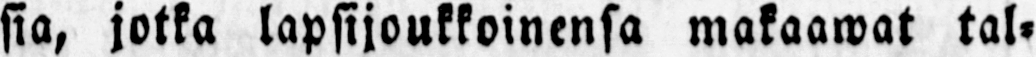sia, jotka lapsijoukkoinensa makaawat tal-
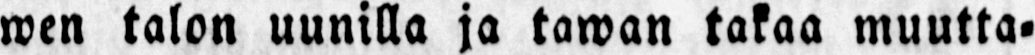wen talon uunilla ja tawan takaa muutta-
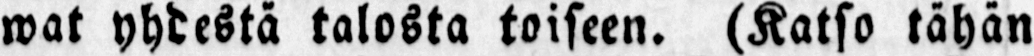wat yhdestä talosta toiseen. (Katso tähän
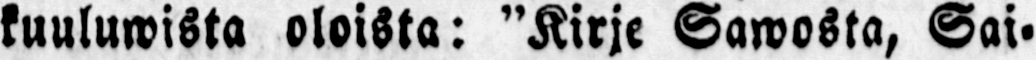kuuluwista oloista: "Kirje Sawosta, Sai-
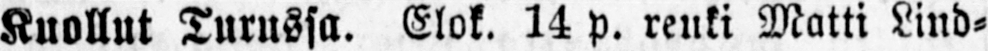Kuollut Turussa. Elok. 14 p. reuki Matti Lind-
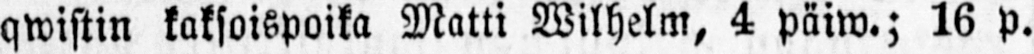qwistin kaksoispoika Matti Wilhelm, 4 päiw.; 16 p.
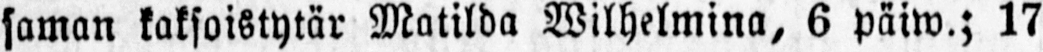saman kaksoistytär Matilda Wilhelmina, 6 päiw.; 17
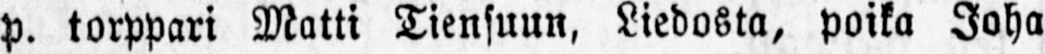p. torppari Matti Tiensuun, Liedosta, poika Joha
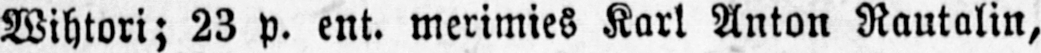Wihtori; 23 p. ent. merimies Karl Anton Rautalin,
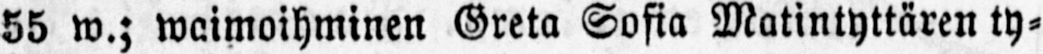55 w.; waimoihminen Greta Sofia Matintyttären ty-
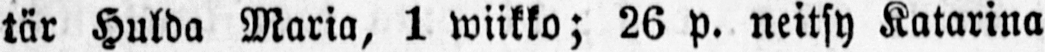tär Hulda Maria, 1 wiikko; 26 p. neitsy Katarina
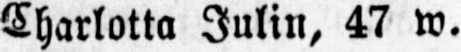Charlotta Julin, 47 w.
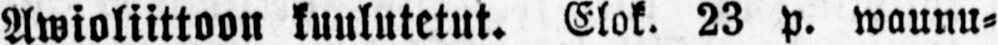Awioliittoon kuulutetut. Elok. 23 p. waunu-
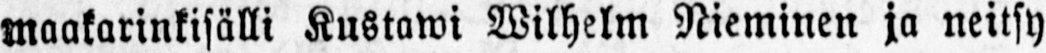maakarinkisälli Kustawi Wilhelm Nieminen ja neitsy
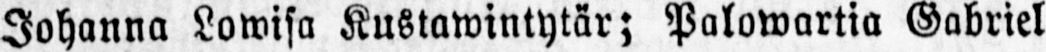Johanna Lowisa Kustawintytär; Palowartia Gabriel
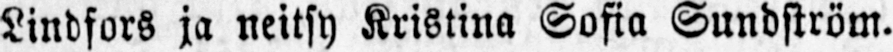Lindfors ja neitsy Kristina Sofia Sundström.
